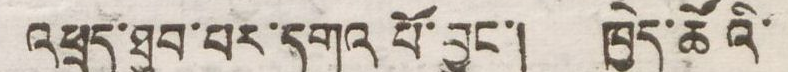འཕྲད་ཐུབ་པར་དགའ པོ་བྱུང་། ཁྱེད་ཚོའི་
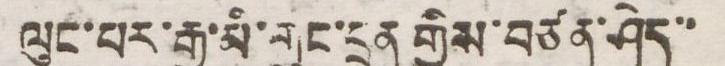ལུང་པར་རྒྱ་མི་གུང་དྲན གྱིས་བཙན་ཤེད་་
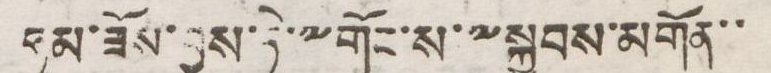ཧམ་ཟོས་བྱས་ཏེ་༸གོང་ས་༸སྐྱབས་མགོན་་
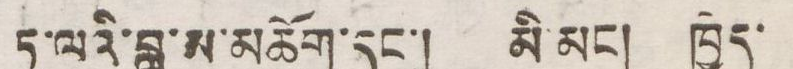ཏཱ་ལའི་བླ་མ་མཆོག་དང་། མི་མང་། ཁྱེད་
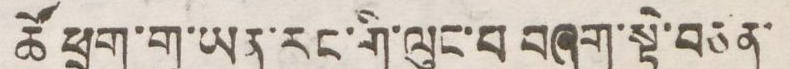ཚོ་ཕྲུག་གུ་ཡན་རང་གི་ལུང་པ བཞག་སྟེ་བཙན་
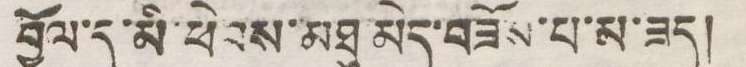བྱོལ་དུ་མི་ཕེབས་མཐུ་མེད་བཟོས་པ་མ་ཟད།
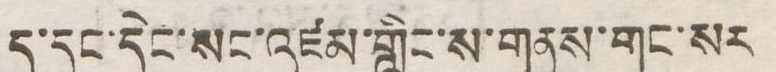ད་དུང་དེང་སང་འཛམ་གླིང་ས་གནས་གང་སར
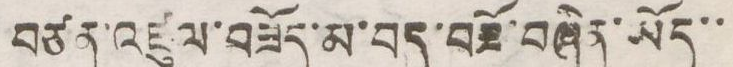བཙན་འཛུལ་བཟོད་མ་བད་བཟོ་བཞིན་ཡོད་་
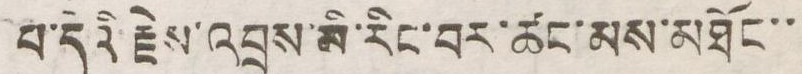པ་དེའི་རྗེས་འབྲས་མི་རིང་བར་ཚང་མས་མཐོང་་
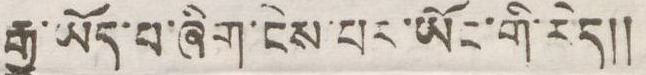རྒྱུ་ཡོད་པ་ཞིག་ངེས་པར་ཡོང་གི་རེད།།
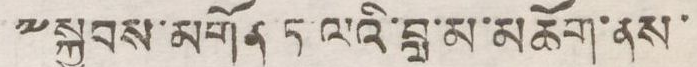༸སྐྱབས་མགོན་ཏཱ ལའི་བླ་མ་མཆོག་ནས་
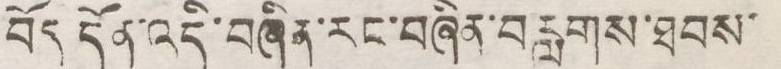བོད་དོན་འདི་བཞིན་རང་བཞིན་བརླགས་ཐབས་
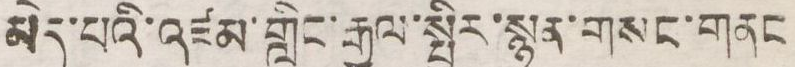མེད་པའི་འཛམ་གླིང་རྒྱལ་སྤྱིར་སྙམ་གསང་གནང
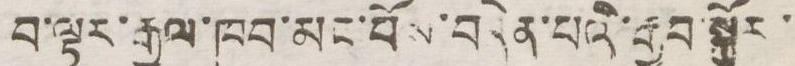བ་ལྟར་རྒྱལ་ཁབ་མང་པོས་བདེན་པའི་རྒྱབ་སྐྱོར་
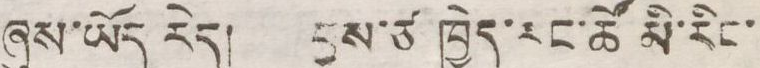ཞུས་ཡོད རེད། བྱས་ཙ ཁྱེད་རང་ཚོ མི་རིང་
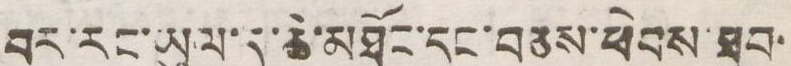བར་རང་ཡུལ་དུ་ཆེ་མཐོང་དང་བཅས་ཕེབས་ཐུབ་
